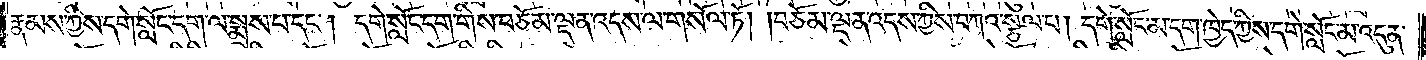རྣམས་ཀྱིས་དགེ་སློང་དག་ལ་སྨྲས་པ་དང༌། དགེ་སློང་དག་གིས་བཅོམ་ལྡན་འདས་ལ་གསོལ་ཏོ། །བཅོམ་ལྡན་འདས་ཀྱིས་བཀའ་སྩལ་པ། དགེ་སློང་མ་དག་ཁྱེད་ཀྱིས་དགེ་སློང་མ་འདུན་
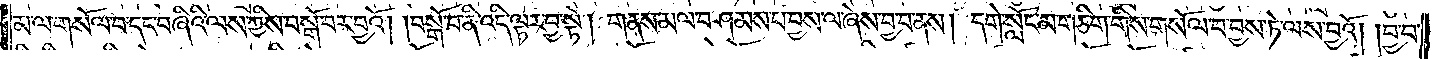མ་ལ་གསོལ་བ་དང་བཞིའི་ལས་ཀྱིས་བསྒོ་བར་བྱའོ། །བསྒོ་བ་ནི་འདི་ལྟར་བྱ་སྟེ། གནས་མལ་བཤམས་པ་བྱས་ལ་ཞེས་བྱ་བ་ནས། དགེ་སློང་མ་གཅིག་གིས་གསོལ་བ་བྱས་ཏེ་ལས་བྱའོ། །བྱ་བ་
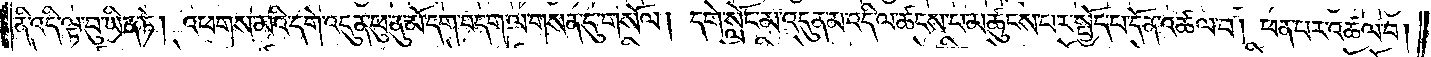ནི་འདི་ལྟ་བུ་ཡིན་ཏེ། འཕགས་མའི་དགེ་འདུན་ཕུ་ནུ་མོ་དག་བདག་ལ་གསན་དུ་གསོལ། དགེ་སློང་མ་འདུན་མ་འདི་ལ་ཚངས་པ་མཚུངས་པར་སྤྱོད་པ་དོན་འཚལ་བ། ཕན་པར་འཚལ་བ།
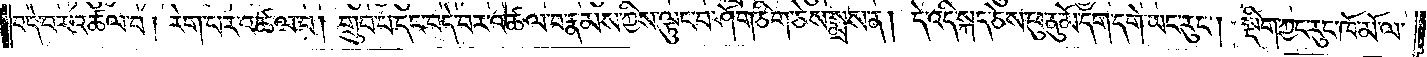བདེ་བར་འཚལ་བ། རེག་པར་འཚལ་བ། གྲུབ་པ་དང་བདེ་བར་འཚལ་བ་རྣམས་ཀྱིས་ལྟུང་བ་ཤོག་ཅིག་ཅེས་སྨྲས་ན། དེ་འདི་སྐད་ཅེས་ཕུ་ནུ་མོ་དག་དགེ་ཡང་རུང༌། སྡིག་ཀྱང་རུང་ཁོ་མོ་ལ་
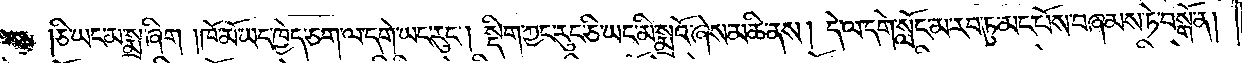ཅི་ཡང་མ་སྨྲ་ཞིག །ཁོ་མོ་ཡང་ཁྱེད་ཅག་ལ་དགེ་ཡང་རུང༌། སྡིག་ཀྱང་རུང་ཅི་ཡང་མི་སྨྲའོ་ཞེས་མཆི་ནས། དེ་ལ་དགེ་སློང་མ་རབ་ཏུ་མང་པོས་བཞམས་ཏེ་བསྒོ་ན།
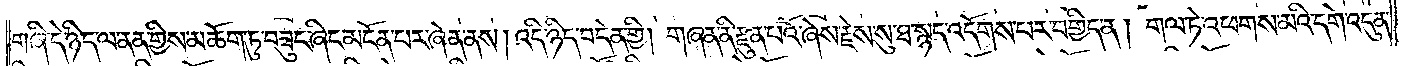གཞི་དེ་ཉིད་ལ་ནན་གྱིས་མཆོག་ཏུ་བཟུང་ཞིག་མངོན་པར་ཞེན་ནས། འདི་ཉིད་བདེན་གྱི། གཞན་ནི་རྫུན་པའོ་ཞེས་རྗེས་སུ་ཐ་སྙད་འདོགས་པར་བགྱིད་ན། གལ་ཏེ་འཕགས་མའི་དགེ་འདུན་
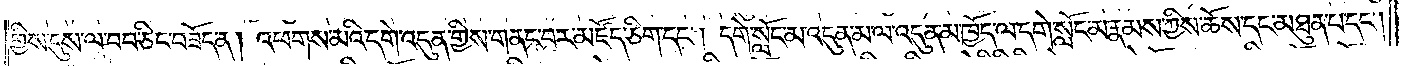གྱིས་དུས་ལ་བབ་ཅིང་བཟོད་ན། འཕགས་མའི་དགེ་འདུན་གྱིས་གནང་བར་མཛོད་ཅིག་དང༌། དགེ་སློང་མ་འདུན་མ་ལ་འདུན་མ་ཁྱོད་ལ་དགེ་སློང་མ་རྣམས་ཀྱིས་ཆོས་དང་མཐུན་པ་དང༌།
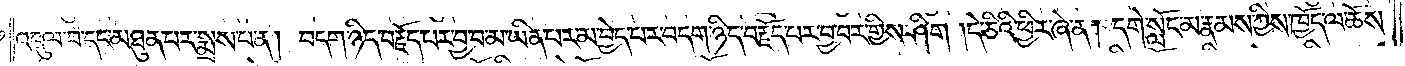འདུལ་བ་དང་མཐུན་པར་སྨྲས་པ་ན། བདག་ཉིད་བརྗོད་པར་བྱ་བ་མ་ཡིན་པར་མ་བྱེད་པར་བདག་ཉིད་བརྗོད་པར་བྱ་བར་གྱིས་ཤིག །དེ་ཅིའི་ཕྱིར་ཞེ་ན། དགེ་སློང་མ་རྣམས་ཀྱིས་ཁྱོད་ལ་ཆོས
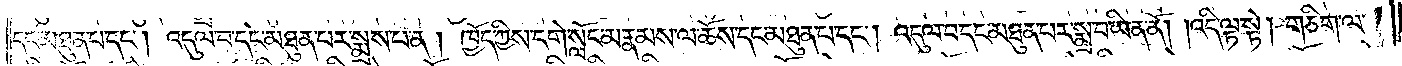དང་མཐུན་པ་དང༌། འདུལ་བ་དང་མཐུན་པར་སྨྲས་པ་ན། ཁྱོད་ཀྱིས་དགེ་སློང་མ་རྣམས་ལ་ཆོས་དང་མཐུན་པ་དང༌། འདུལ་བ་དང་མཐུན་པར་སྨྲ་བ་ཡིན་ནོ། །འདི་ལྟ་སྟེ། གཅིག་ལ་
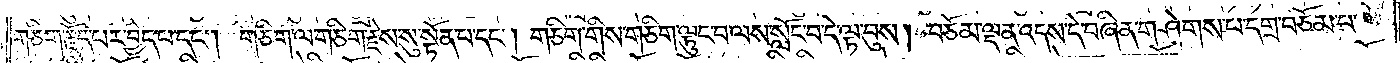གཅིག་རྗོད་པར་བྱེད་པ་དང༌། གཅིག་ལ་གཅིག་རྗེས་སུ་སྟོན་པ་དང༌། གཅིག་གིས་གཅིག་ལྟུང་བ་ལས་སློང་བ་དེ་ལྟ་བུས། བཅོམ་ལྡན་འདས་དེ་བཞིན་གཤེགས་པ་དགྲ་བཅོམ་པ་
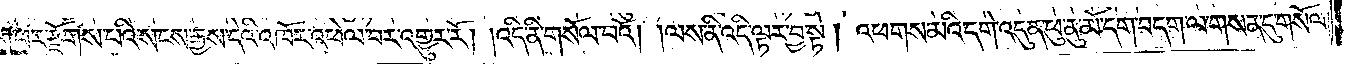ག་པར་རྫོགས་པའི་སངས་རྒྱས་དེའི་འཁོར་འཕེལ་བར་འགྱུར་རོ། །འདི་ནི་གསོལ་བའོ། །ལས་ནི་འདི་ལྟར་བྱས་ཏེ། འཕགས་མའི་དགེ་འདུན་ཕུ་ནུ་མོ་དག་བདག་ལ་གསན་དུ་གསོལ།
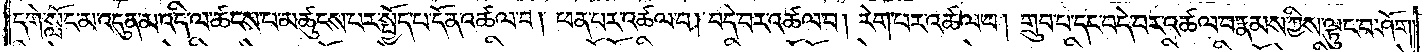དགེ་སློང་མ་འདུན་མ་འདི་ལ་ཚངས་པ་མཚུངས་པར་སྤྱོད་པ་དོན་འཚལ་བ། ཕན་པར་འཚལ་བ། བདེ་བར་འཚལ་བ། རེག་པར་འཚལ་བ། གྲུབ་པ་དང་བདེ་བར་འཚལ་བ་རྣམས་ཀྱིས་ལྟུང་བ་ཤོག་
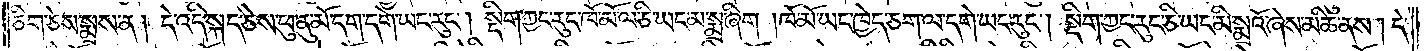ཅིག་ཅེས་སྨྲས་ན། དེ་འདི་སྐད་ཅེས་ཕུ་ནུ་མོ་དག་དགེ་ཡང་རུང༌། སྡིག་ཀྱང་རུང་ཁོ་མོ་ལ་ཅི་ཡང་མ་སྨྲ་ཞིག །ཁོ་མོ་ཡང་ཁྱེད་ཅག་ལ་དགེ་ཡང་རུང༌། སྡིག་ཀྱང་རུང་ཅི་ཡང་མི་སྨྲའོ་ཞེས་མཆི་ནས། དེ་
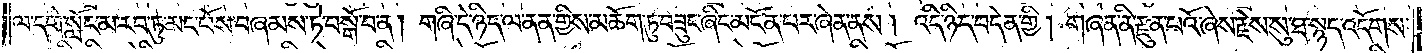ལ་དགེ་སློང་མ་རབ་ཏུ་མང་པོས་བཞམས་ཏེ་བསྒོ་བ་ན། གཞི་དེ་ཉིད་ལ་ནན་གྱིས་མཆོག་ཏུ་བཟུང་ཞིང་མངོན་པར་ཞེན་ནས། འདི་ཉིད་བདེན་གྱི། གཞན་ནི་རྫུན་པའོ་ཞེས་རྗེས་སུ་ཐ་སྙད་འདོགས་
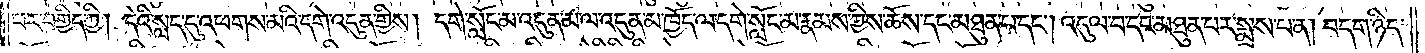པར་བགྱིད་ཀྱི། དེའི་སླད་དུ་འཕགས་མའི་དགེ་འདུན་གྱིས། དགེ་སློང་མ་འདུན་མ་ལ་འདུན་མ་ཁྱོད་ལ་དགེ་སློང་མ་རྣམས་ཀྱིས་ཆོས་དང་མཐུན་པ་དང༌། འདུལ་བ་དང་མཐུན་པར་སྨྲས་པ་ན། བདག་ཉིད་
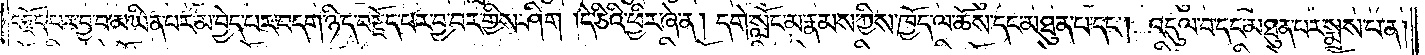བརྗོད་པར་བྱ་བ་མ་ཡིན་པར་མ་བྱེད་པར་བདག་ཉིད་བརྗོད་པར་བྱ་བར་གྱིས་ཤིག །དེ་ཅིའི་ཕྱིར་ཞེ་ན། དགེ་སློང་མ་རྣམས་ཀྱིས་ཁྱོད་ལ་ཆོས་དང་མཐུན་པ་དང༌། འདུལ་བ་དང་མཐུན་པར་སྨྲས་པ་ན།
